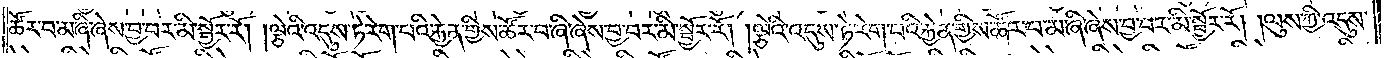ཚོར་བ་མ་ཞི་ཞེས་བྱ་བར་མི་སྦྱོར་རོ། །ལྕེའི་འདུས་ཏེ་རེག་པའི་རྐྱེན་གྱིས་ཚོར་བ་ཞི་ཞེས་བྱ་བར་མི་སྦྱོར་རོ། །ལྕེའི་འདུས་ཏེ་རེག་པའི་རྐྱེན་གྱིས་ཚོར་བ་མ་ཞི་ཞེས་བྱ་བར་མི་སྦྱོར་རོ། །ལུས་ཀྱི་འདུས་
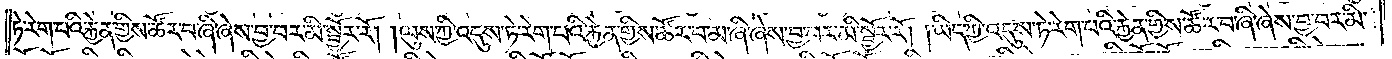ཏེ་རེག་པའི་རྐྱེན་གྱིས་ཚོར་བ་ཞི་ཞེས་བྱ་བར་མི་སྦྱོར་རོ། །ལུས་ཀྱི་འདུས་ཏེ་རེག་པའི་རྐྱེན་གྱིས་ཚོར་བ་མ་ཞི་ཞེས་བྱ་བར་མི་སྦྱོར་རོ། །ཡིད་ཀྱི་འདུས་ཏེ་རེག་པའི་རྐྱེན་གྱིས་ཚོར་བ་ཞི་ཞེས་བྱ་བར་མི་
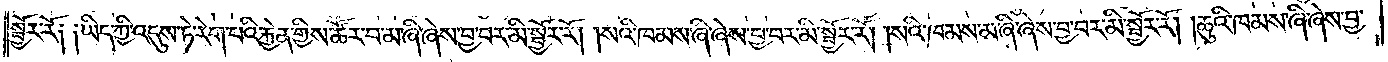སྦྱོར་རོ༑ ༑ཡིད་ཀྱི་འདུས་ཏེ་རེག་པའི་རྐྱེན་གྱིས་ཚོར་བ་མ་ཞི་ཞེས་བྱ་བར་མི་སྦྱོར་རོ། །སའི་ཁམས་ཞི་ཞེས་བྱ་བར་མི་སྦྱོར་རོ། །སའི་ཁམས་མ་ཞི་ཞེས་བྱ་བར་མི་སྦྱོར་རོ། །ཆུའི་ཁམས་ཞི་ཞེས་བྱ་
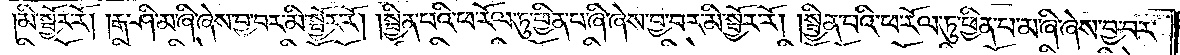མི་སྦྱོར་རོ། །རྒ་ཤི་མ་ཞི་ཞེས་བྱ་པར་མི་སྦྱོར་རོ། །སྦྱིན་པའི་ཕ་རོལ་ཏུ་ཕྱིན་པ་ཞི་ཞེས་བྱ་བར་མི་སྦྱོར་རོ། །སྦྱིན་པའི་ཕ་རོལ་ཏུ་ཕྱིན་པ་མ་ཞི་ཞེས་བྱ་བར་
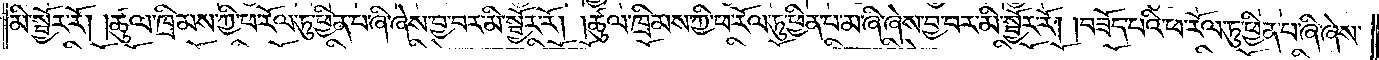མི་སྦྱོར་རོ། །ཚུལ་ཁྲིམས་ཀྱི་ཕ་རོལ་ཏུ་ཕྱིན་པ་ཞི་ཞེས་བྱ་བར་མི་སྦྱོར་རོ། །ཚུལ་ཁྲིམས་ཀྱི་ཕ་རོལ་ཏུ་ཕྱིན་པ་མ་ཞི་ཞེས་བྱ་བར་མི་སྦྱོར་རོ། །བཟོད་པའི་ཕ་རོལ་ཏུ་ཕྱིན་པ་ཞི་ཞེས་
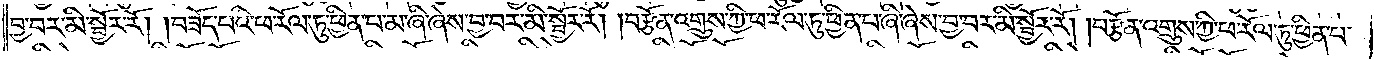བྱ་བར་མི་སྦྱོར་རོ། །བཟོད་པའི་ཕ་རོལ་ཏུ་ཕྱིན་པ་མ་ཞི་ཞེས་བྱ་བར་མི་སྦྱོར་རོ། །བརྩོན་འགྲུས་ཀྱི་ཕ་རོལ་ཏུ་ཕྱིན་པ་ཞི་ཞེས་བྱ་བར་མི་སྦྱོར་རོ། །བརྩོན་འགྲུས་ཀྱི་ཕ་རོལ་ཏུ་ཕྱིན་པ་
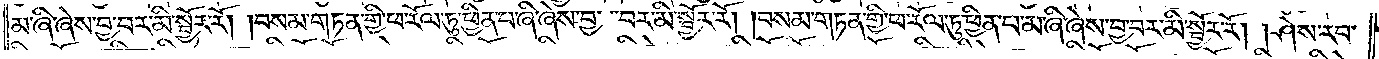མ་ཞི་ཞེས་བྱ་བར་མི་སྦྱོར་རོ། །བསམ་གཏན་གྱི་ཕ་རོལ་ཏུ་ཕྱིན་པ་ཞི་ཞེས་བྱ་བར་མི་སྦྱོར་རོ། །བསམ་གཏན་གྱི་ཕ་རོལ་ཏུ་ཕྱིན་པ་མ་ཞི་ཞེས་བྱ་བར་མི་སྦྱོར་རོ། །ཤེས་རབ་
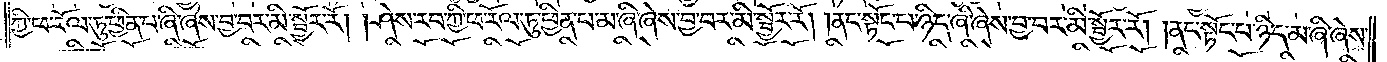ཀྱི་ཕ་རོལ་ཏུ་ཕྱིན་པ་ཞི་ཞེས་བྱ་བར་མི་སྦྱོར་རོ། །ཤེས་རབ་ཀྱི་ཕ་རོལ་ཏུ་ཕྱིན་པ་མ་ཞི་ཞེས་བྱ་བར་མི་སྦྱོར་རོ། །ནང་སྟོང་པ་ཉིད་ཞི་ཞེས་བྱ་བར་མི་སྦྱོར་རོ། །ནང་སྟོང་པ་ཉིད་མ་ཞི་ཞེས་
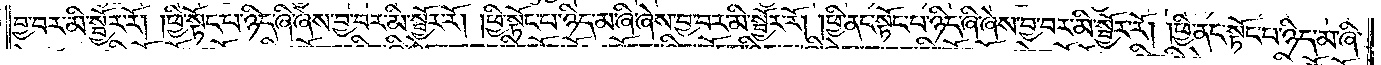བྱ་བར་མི་སྦྱོར་རོ། །ཕྱི་སྟོང་པ་ཉིད་ཞི་ཞེས་བྱ་བར་མི་སྦྱོར་རོ། །ཕྱི་སྟོང་པ་ཉིད་མ་ཞི་ཞེས་བྱ་བར་མི་སྦྱོར་རོ། །ཕྱི་ནང་སྟོང་པ་ཉིད་ཞི་ཞེས་བྱ་བར་མི་སྦྱོར་རོ། །ཕྱི་ནང་སྟོང་པ་ཉིད་མ་ཞི་
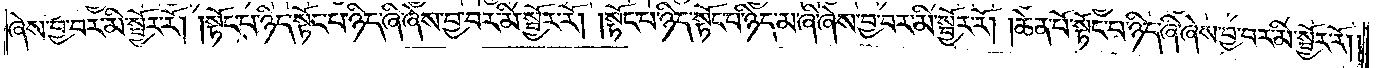ཞེས་བྱ་བར་མི་སྦྱོར་རོ། །སྟོང་པ་ཉིད་སྟོང་པ་ཉིད་ཞི་ཞེས་བྱ་བར་མི་སྦྱོར་རོ། །སྟོང་པ་ཉིད་སྟོང་པ་ཉིད་མ་ཞི་ཞེས་བྱ་བར་མི་སྦྱོར་རོ། །ཆེན་པོ་སྟོང་པ་ཉིད་ཞི་ཞེས་བྱ་བར་མི་སྦྱོར་རོ༎
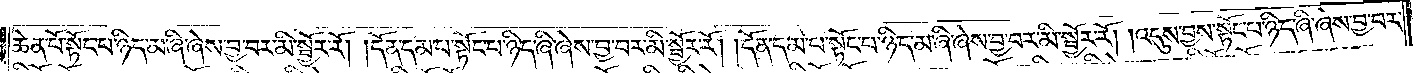ཆེན་པོ་སྟོང་པ་ཉིད་མ་ཞི་ཞེས་བྱ་བར་མི་སྦྱོར་རོ། །དོན་དམ་པ་སྟོང་པ་ཉིད་ཞི་ཞེས་བྱ་བར་མི་སྦྱོར་རོ། །དོན་དམ་པ་སྟོང་པ་ཉིད་མ་ཞི་ཞེས་བྱ་བར་མི་སྦྱོར་རོ། །འདུས་བྱས་སྟོང་པ་ཉིད་ཞི་ཞེས་བྱ་བར་
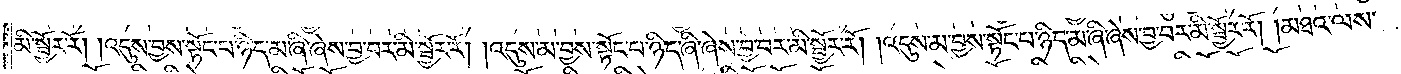མི་སྦྱོར་རོ། །འདུས་བྱས་སྟོང་པ་ཉིད་མ་ཞི་ཞེས་བྱ་བར་མི་སྦྱོར་རོ། །འདུས་མ་བྱས་སྟོང་པ་ཉིད་ཞི་ཞེས་བྱ་བར་མི་སྦྱོར་རོ། །འདུས་མ་བྱས་སྟོང་པ་ཉིད་མ་ཞི་ཞེས་བྱ་བར་མི་སྦྱོར་རོ། །མཐའ་ལས་
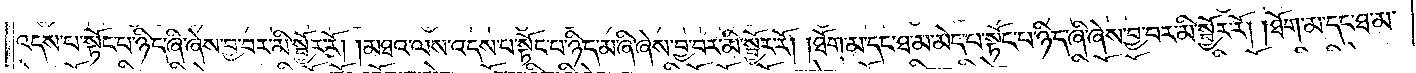འདས་པ་སྟོང་པ་ཉིད་ཞི་ཞེས་བྱ་བར་མི་སྦྱོར་རོ། །མཐའ་ལས་འདས་པ་སྟོང་པ་ཉིད་མ་ཞི་ཞེས་བྱ་བར་མི་སྦྱོར་རོ། །ཐོག་མ་དང་ཐ་མ་མེད་པ་སྟོང་པ་ཉིད་ཞི་ཞེས་བྱ་བར་མི་སྦྱོར་རོ། །ཐོག་མ་དང་ཐ་མ་
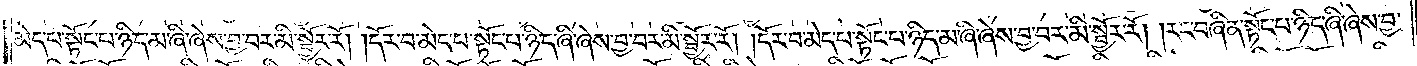མེད་པ་སྟོང་པ་ཉིད་མ་ཞི་ཞེས་བྱ་བར་མི་སྦྱོར་རོ། །དོར་བ་མེད་པ་སྟོང་པ་ཉིད་ཞི་ཞེས་བྱ་བར་མི་སྦྱོར་རོ། །དོར་བ་མེད་པ་སྟོང་པ་ཉིད་མ་ཞི་ཞེས་བྱ་བར་མི་སྦྱོར་རོ། །རང་བཞིན་སྟོང་པ་ཉིད་ཞི་ཞེས་བྱ་
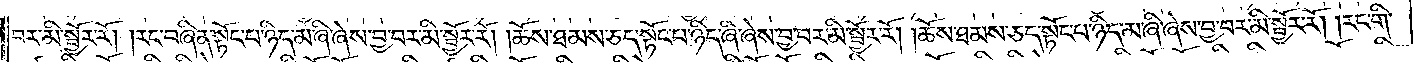བར་མི་སྦྱོར་རོ། །རང་བཞིན་སྟོང་པ་ཉིད་མ་ཞི་ཞེས་བྱ་བར་མི་སྦྱོར་རོ། །ཆོས་ཐམས་ཅད་སྟོང་པ་ཉིད་ཞི་ཞེས་བྱ་བར་མི་སྦྱོར་རོ། །ཆོས་ཐམས་ཅད་སྟོང་པ་ཉིད་མ་ཞི་ཞེས་བྱ་བར་མི་སྦྱོར་རོ། །རང་གི་
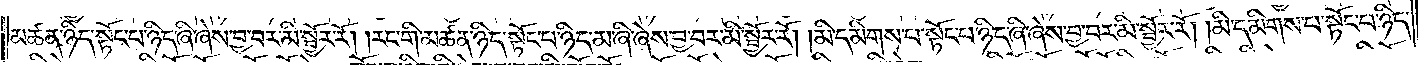མཚན་ཉིད་སྟོང་པ་ཉིད་ཞི་ཞེས་བྱ་བར་མི་སྦྱོར་རོ། །རང་གི་མཚན་ཉིད་སྟོང་པ་ཉིད་མ་ཞི་ཞེས་བྱ་བར་མི་སྦྱོར་རོ། །མི་དམིགས་པ་སྟོང་པ་ཉིད་ཞི་ཞེས་བྱ་བར་མི་སྦྱོར་རོ། །མི་དམིགས་པ་སྟོང་པ་ཉིད་
